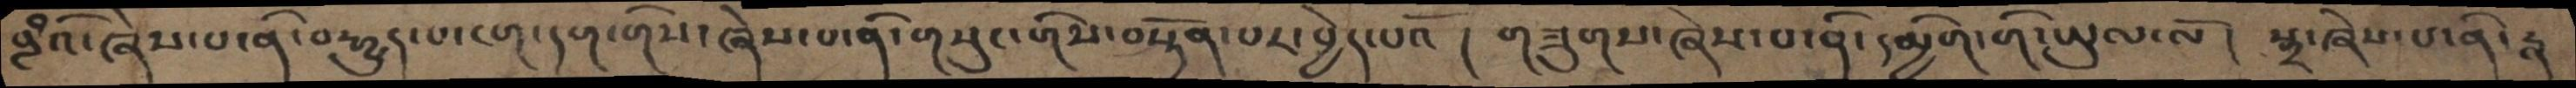བླཾའོ་ཞེས་པ་ནི་བརྒྱུད་པ་ངག་དག་གིས་ཞེས་པ་ནི་གསུང་གིས་བསྟོན་པར་བྱེད་པའོ།  གཟུགས་ཞེས་པ་ནི་དམྱིག་གི་ཡུལ་ལོ།  སྒྲ་ཞེས་པ་ནི་རྣ
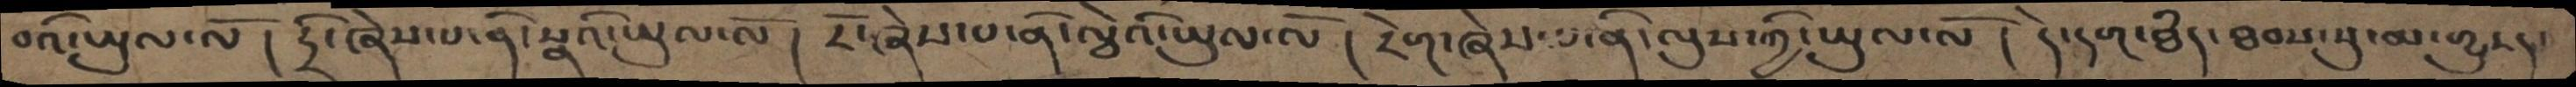བའི་ཡུལ་ལོ། དྲི་ཞེས་པ་ནི་སྣའི་ཡུལ་ལོ། རོ་ཞེས་པ་ནི་ལྕེའི་ཡུལ་ལོ། རེག་ཞེས་པ་ནི་ལུས་ཀྱི་ཡུལ་ལོ། དེ་དག་ཐདཾ་ཐབས་སུ་མ་གྱུརད་
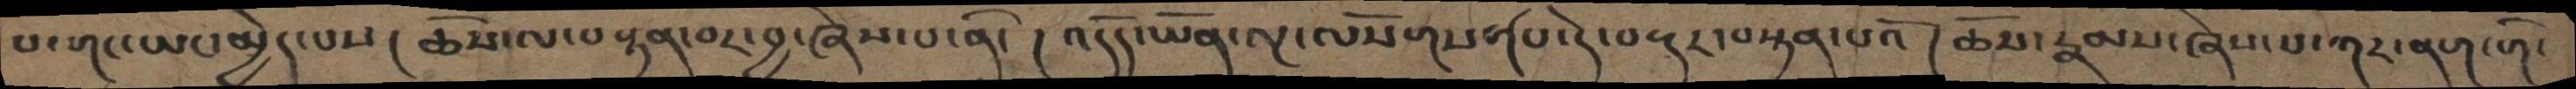པ་གང་ཡང་མྱེད་པས། ཆོས་ལ་བསྟན་བར་བྱ་ཞེས་པ་ནི་། འདོད་ཡོན་ལྔ་ལསོགསགཔ་དེ་བརྡར་བསྟན་པའོ། ཆོས་རྣམས་ཞེས་པ་ཀར་ནག་གི་
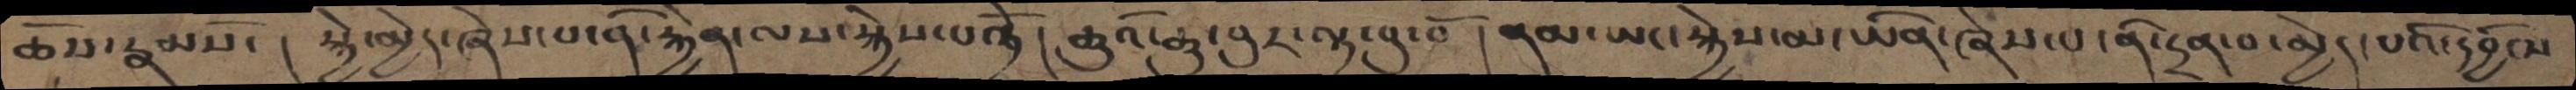ཆོས་རྣམསོ་། སྐྱེ་མྱེད་ཞེས་པ་ནི་རྐྱེན་ལས་སྐྱེས་པའོ། ཆུའི་ཆུ་བུར་ལྟ་བུ་བོ །ནམ་ཡང་སྐྱེས་མ་ཡིན་ཞེས་པ་ནི་དྲན་བ་མྱེད་པའི་དབྱིངས
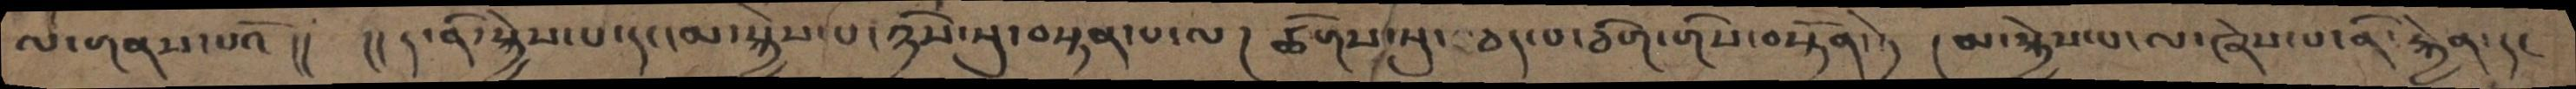ལ་གནས་པའོ།།  །།ད་ནི་སྐྱེས་པ་དང་མ་སྐྱེས་པ་ཉིས་སུ་བསྟན་པ་ལ། ཚིགས་སུ་བཅད་པ་ཅིག་གིས་བསྟོན་ཏེ། མ་སྐྱེས་པ་ལ་ཞེས་པ་ནི་རྐྱེན་དང
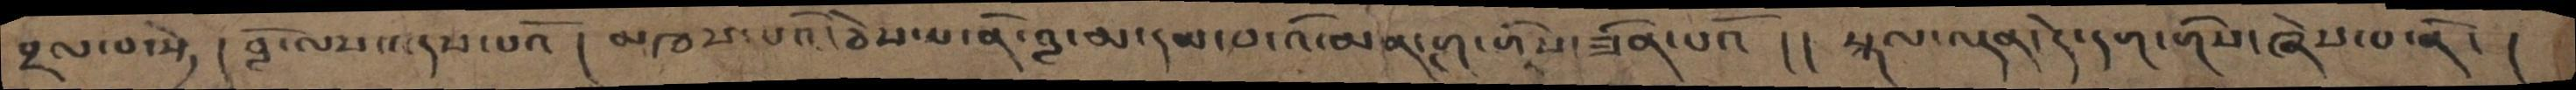བྲལ་བ་སྟེ ། བློ་ལས་འདས་པའོ ། མཁས་པའི་ཅེས་པ་ནི་བླ་མ་དམ་པ་འི་མན་ངག་གིས་ཟིན་པའོ །།  སྐལ་ལྡན་དེ་དག་གིས་ཞེས་པ་ནི་ །
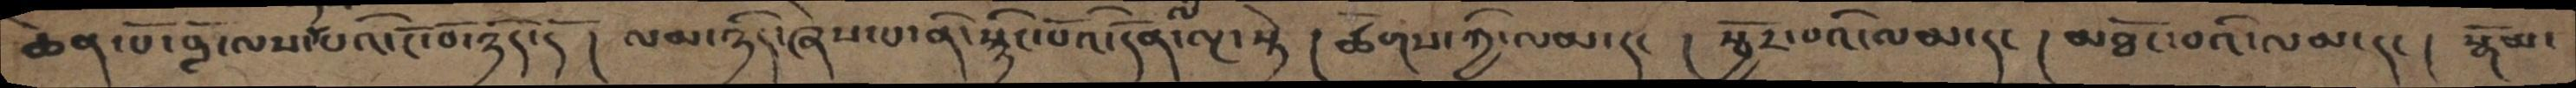ཆེན་པོ་བློ་ལས་པའི་ངོ་བོ་ཉིད་དོ ། ལམ་ཉིད་ཞེས་པ་ནི་སྙིང་པོའི་དོན་ལ་ལྔ་སྟེ ། ཚོགས་ཀྱི་ལམ་དང ། སྦྱོར་བའི་ལམ་དང་ ། མཐོང་བའི་ལམ་དང་ ། སྒོམ་
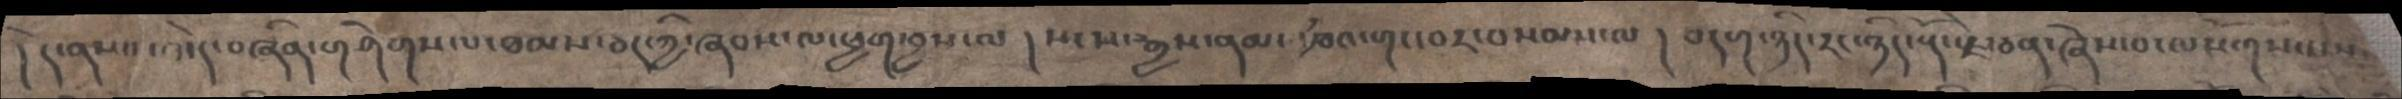།དེ་ནས་་་་་དེ་བཞིན་གཤེགས་པ་ཐམས་ཅད་ཀྱི་ཞབས་ལ་ཕྱག་བྱས་ལ། སངས་རྒྱས་ནམ་ཁའ་གང་བར་བསམས་ལ ། བདག་ཉིད་རང་ཉིད་རྡོ་རྗེ་ཅན་ཞེས་བ་ལསོགས་པས་
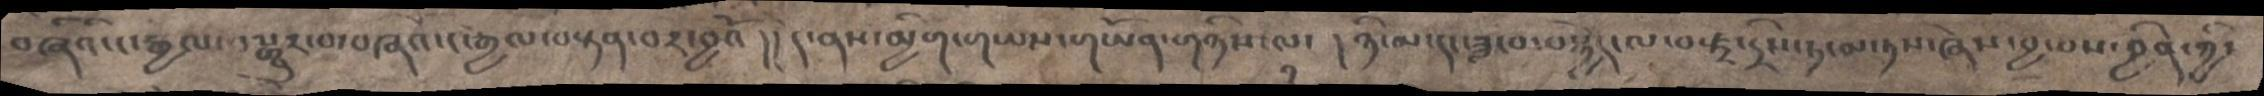བཞིའི་ང་རྒྱལ་བསྒྱུར་བ་བཞིའི་ང་རྒྱལ་བསྟན་བར་བྱའོ་ །། དེ་ནས་མྱིག་གཡས་གཡོན་གཉིས་ལ་ ། ཉི་མ་དང་ཟླ་བ་བསྐྱེད་ལ་བཛྲ་དྲིས་ཏ་མ་ཏས་ཞེས་བྱ་བས་བྱིན་ཀྱི་
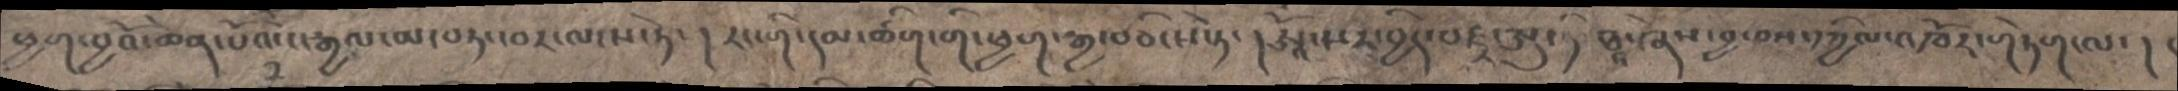ཕྱག་བྱའོ་ཆེན་པོའི་ང་རྒྱལ་མ་བཏང་བར་ལངས་ཏེ་ །རང་གི་དམ་ཚིག་གི་ཕྱག་་རྒྱ་བཅིངས་ཏེ་ །ཨཱོཾ་སར་བྱེད་བཛྲ་ཨུ་ཏི་ཐྵ་ཞེས་བྱ་བས་དཀྱིལ་འཁོར་གཏེག་ལ་ །
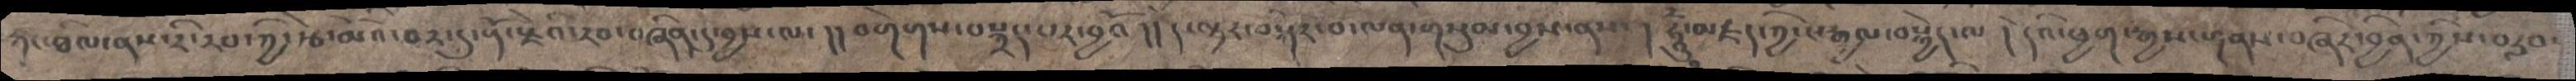རྐང་ཐིལ་ནས་རི་རབ་ཀྱི་རྩེ་མོའི་རབ་དུ་རྡོ་རྗེའི་རབ་བཞིན་དུ་བྱས་ལ་།།བགེགས་བསྐྲད་པར་བྱའོ།། དེ་ལྟར་བསྐོར་བ་ལན་གསུམ་བྱས་ནས་། ཧཱུྃ་མཛད་ཀྱི་ང་རྒྱལ་བསྐྱེད་ལ། དེའི་ཕྱག་རྒྱས་གནས་བཞིར་བྱིན་ཀྱིས་བརླབ་
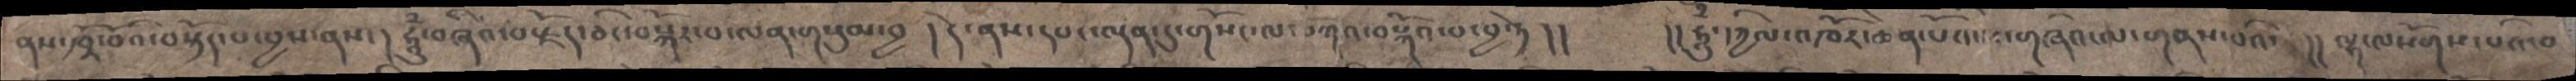ནས་ཁྲོ་བོའི་བསྟོད་པ་བྱས་ནས་། ཧཱུྃ་བཞིའ་བརྗོད་ཅིང་བསྐོར་བ་ལན་གསུམ་བྱ ། དེ་ནས་དབང་ལྡན་དུ་གསོང་ལ་བཀའ་བསྐོའ་བ་བྱ་ཏེ །།   །།ཧཱུྃ་དཀྱིལ་འཁོར་ཆེན་པོའི་གཞིའ་ལ་གནས་པའི །།  ལྷ་ལསོགས་པའི་བ
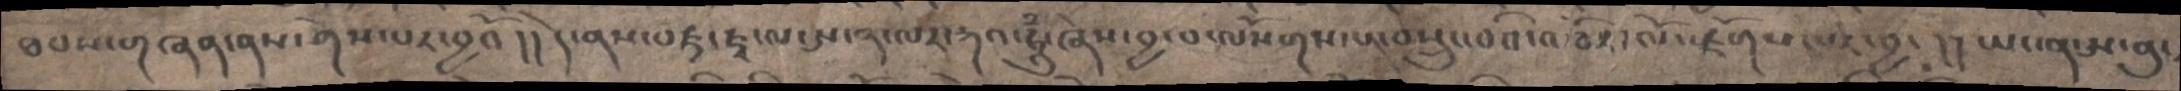ཐབས་གཞན་ནས་ཤེས་པར་པར་བྱའོ།། དེ་ནས་བཛྲ་ཛྭ་ལ་ཨ་ན་ལར་རྐའ་ཧཱུྃ་ཞེས་བྱ་བ་ལསོགས་པ་བསྲུང་བའི་འཁོར་ལོ་རྫོགས་པར་བྱ་།།ཡང་ན་ཨ་ནུ་
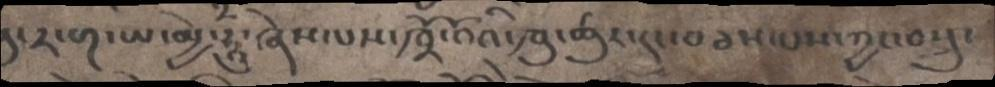སུ་ར་ག་ཡ་མྱེ་ཧཱུྃ་ཞེས་པས་ཁྲོ་བོའི་ཁུ་ཚུར་དང་བཅས་པས་ཀྱང་བསྲུང
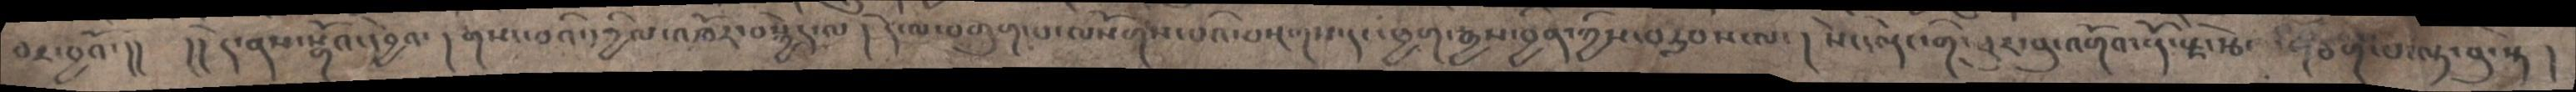བར་བྱའོ་།།   །།དེ་ནས་སྒོའ་དབྱེའ་། གསང་བའི་དཀྱིལ་འཁོར་བསྐྱེད་ལ། དེ་ལ་བགུག་པ་ལསོགས་པའི་བསྔགས་དང་ཕྱག་རྒྱས་བྱིན་ཀྱིས་བརླབས་ལ་། སེང་ལྡེང་གི་ཕུར་བུ་འགོབ་རྡོ་རྗེ་རྩེ་ གཅིག་པ་ལྟ་བུ་སྟེ།
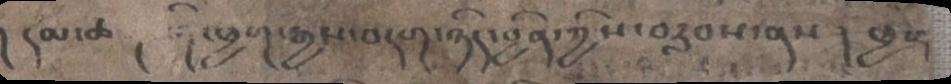།  དམ་ཆ ། གི་ཕྱག་རྒྱས་བདག་ཉིད་བྱིན་ཀྱིས་བརླབས་ནས ། ཕྱིན
